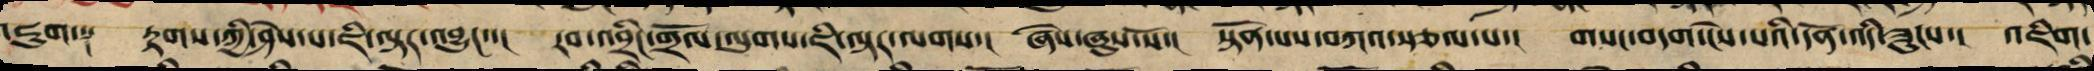འཇུག་༑ རྟགས་ཀྱི་ཤེས་པ་ཇི་ལྟར་འབྱུང་་། རབ་འབྲིང་གྲོལ་ལུགས་ཇི་ལྟར་ལགས་། ཞེས་ཞུས་སོ་། སྟོན་པས་བཀའ་སྩལ་པ་། གསང་བདག་ངེས་པའི་དོན་འདི་ཟུངས་། འཇིག་
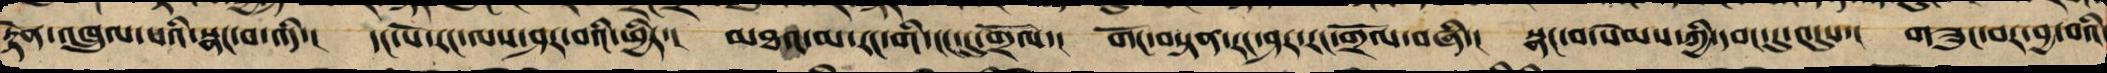རྟེན་འཁྲུལ་པའི་སྣང་བ་འདི་། དང་པོ་རང་ལས་ཤར་བའི་ཕྱིར་། མཐའ་མ་རང་གི་ངང་དུ་གྲོལ་། གོང་བསྟན་རང་ཤར་རང་གྲོལ་བཞི་། སྣང་བ་སེམས་ཀྱི་དབང་དུ་འདུས་། གཟུང་བར་བྱ་བའི་
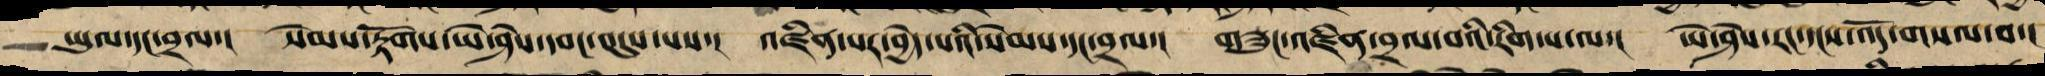ཡུལ་དང་བྲལ་། སེམས་རྟོགས་ཡེ་ཤེས་དབང་འདུས་པས་། འཛིན་པར་བྱེད་པའི་སེམས་དང་བྲལ་། གཟུང་འཛིན་བྲལ་བའི་རིག་པ་ལ་། ཡེ་ཤེས་རང་དངས་འོད་གསལ་བ་།
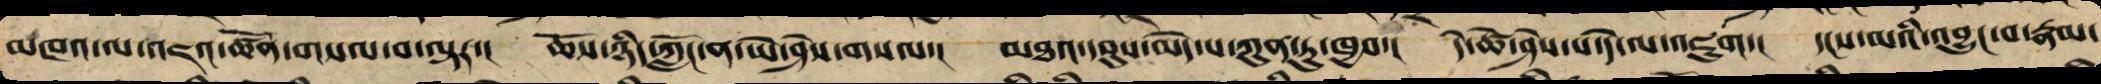མཁའ་ལ་འཇའ་ཚོན་གསལ་བ་ལྟར་། ཆོས་ཉིད་ཀློང་ན་ཡེ་ཤེས་གསལ་། མཐའ་དབུས་མེད་པ་ཀུན་ཏུ་ཁྱབ་། དེ་ཚེ་ཤེས་པ་དེ་ལ་འཇུག་། དངས་མའི་འབྱུང་བ་རྣམ་
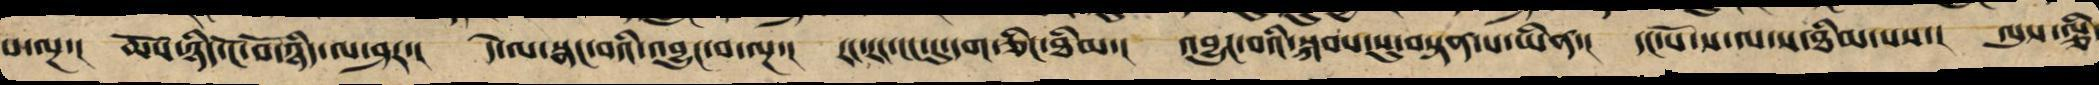པ་ལྔ་། ཆོས་ཉིད་ངོ་བོ་ཉིད་ལ་ཤར་། དེ་ལ་སྣང་བའི་འབྱུང་བ་ལྔ་། རང་རང་ངང་དུ་དག་ཅིང་ཐིམ་། འབྱུང་བའི་སྐབས་སུ་བསྟན་པ་ཡིན་། དང་པོ་ས་ལ་ས་ཐིམ་པས་། ལུས་ལྕི་
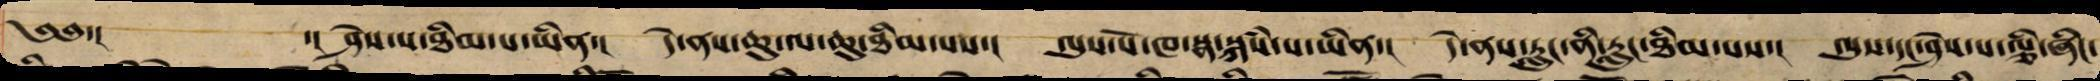༄༅་། ་། ཤེས་པ་ཐིམ་པ་ཡིན་། དེ་ནས་ཆུ་ལ་ཆུ་ཐིམ་པས་། ལུས་པོ་ཁ་སྣ་སྐཾས་པ་ཡིན་། དེ་ནས་རླུང་ལ་རླུང་ཐིམ་པས་། ལུས་དང་ཤེས་པ་ལྕི་ཞིང་
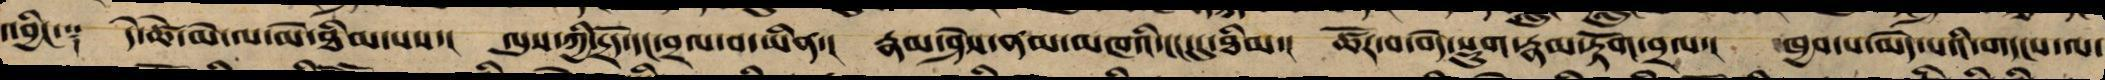འབྱིང་༑ དེ་ཚེ་མེ་ལ་མེ་ཐིམ་པས་། ལུས་ཀྱི་དྲོད་དང་བྲལ་བ་ཡིན་། རྣམ་ཤེས་ནམ་མཁའི་ངང་དུ་ཐིམ་། ཚོར་བ་བདེ་སྡུག་རྣམ་རྟོག་བྲལ་། ཁྱབ་པ་མེད་པའི་གདངས་ལ་
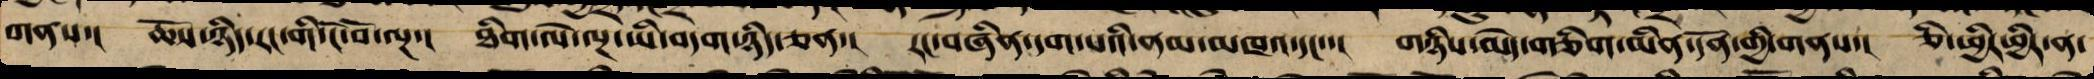གནས་། ཆོས་ཉིད་རང་གི་ངོ་བོ་ལྔ་། ཐིག་ལེ་ལྔ་ཡི་བདག་ཉིད་ཅན་། རང་བཞིན་དག་པའི་ནམ་མཁའ་དང་་། གཉིས་མེད་གཅིག་མིན་དོན་གྱི་གནས་། ཅི་ཕྱིར་ཕྱིར་ན་
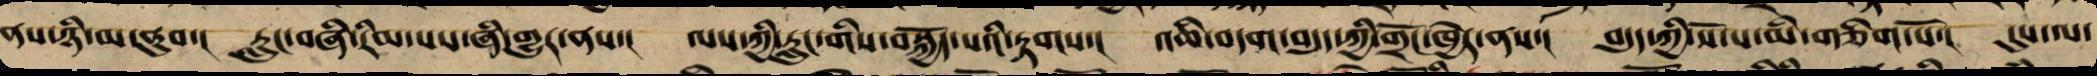ནས་ཉི་མ་ནུབ་། རླུང་བཞི་རིམ་པས་ཞི་གྱུར་ནས་། ལས་ཀྱི་རླུང་གིས་བསྐྱོད་པའི་རྟགས་། འཆི་བདག་བདུད་ཀྱི་གྲོང་ཁྱེར་ནས་། བདུད་ཀྱི་སོ་པ་མི་གཅིག་པོ་། དུས་ལ་
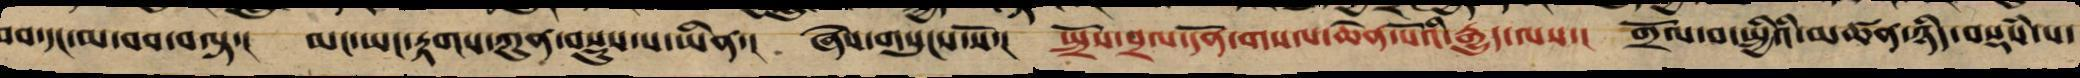བབ་དང་མ་བབ་བལྟ་། མང་ཡང་རྟགས་ཀུན་བསྡུས་པ་ཡིན་། ཞེས་གསུངས་སོ་། སྤྲོས་བྲལ་དོན་གསལ་ཆེན་པོའི་རྒྱུད་ལས་། གྲོལ་བ་སྤྱིའི་མཚན་ཉིད་བསྡཾས་པ་
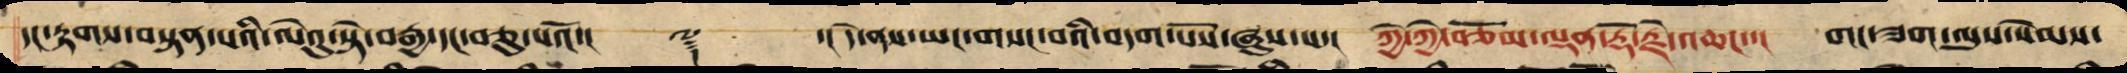དང་རྟགས་བསྟན་པའི་ལེའུ་སྟེ་བརྒྱ་དང་བཅུ་པའོ་།། ༈ ་། དེ་ནས་ཡང་གསང་བའི་བདག་པོས་ཞུས་པ་། ཀྱེ་ཀྱེ་བཅོམ་ལྡན་རྡོ་རྗེ་འཆང་་། གང་ཟག་ལུས་སེམས་
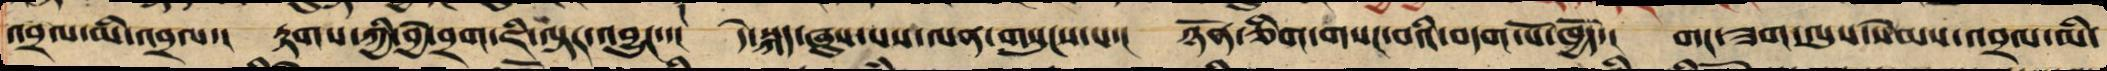འབྲལ་མི་འབྲལ་། རྟགས་ཀྱི་བྱེ་བྲག་ཇི་ལྟར་འབྱུང་་། དེ་སྐད་ཞུས་པས་ལན་གསུངས་པ་། ཉོན་ཅིག་གསང་བའི་བདག་པོ་ཁྱོད་། གང་ཟག་ལུས་སེམས་འབྲལ་མི་
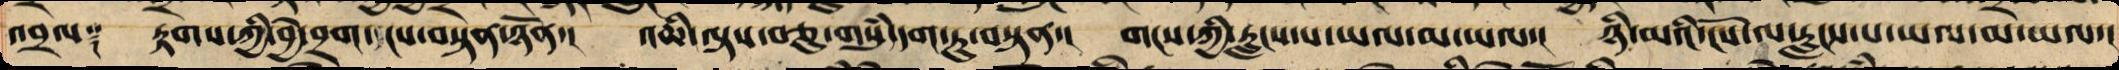འབྲལ༑ རྟགས་ཀྱི་བྱེ་བྲག་ངས་བསྟན་ཉོན་། འཆི་ལྟས་བཅུ་གསུཾ་དག་ཏུ་བསྟན་། གངས་ཀྱི་རླངས་པ་ཡལ་མ་ཡལ་། ཉི་མའི་ངོས་ལ་རླངས་པ་ཡལ་མ་ཡལ་།
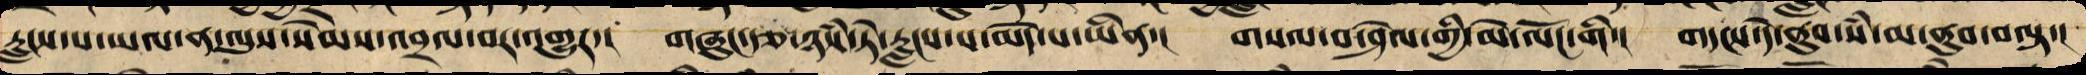རླངས་པ་ཡལ་ན་ལུས་སེམས་འབྲལ་བར་འགྱུར་། གཞུང་རྩ་ཉཾས་ཏེ་རླངས་པ་མེད་པ་ཡིན་། གསལ་བ་ཤེལ་གྱི་མེ་ལོང་གི་། གདངས་དེ་ནུབ་སཾ་མ་ནུབ་བལྟ་།
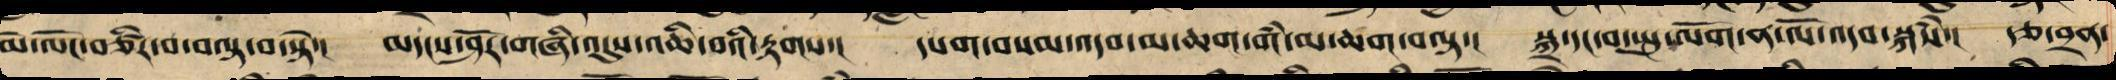མེ་ལོང་བཙིར་བ་བལྟ་བ་སྟེ་། མདངས་ཤོར་གཞི་འདུས་འཆི་བའི་རྟགས་། དཔག་བསམ་འདབ་མ་ཆག་གཾ་མ་ཆག་བལྟ་། སྐྲ་དང་བ་སྤུ་ལོག་ན་ལོ་འདབ་སྐཾས་། རྩ་བྲན་
